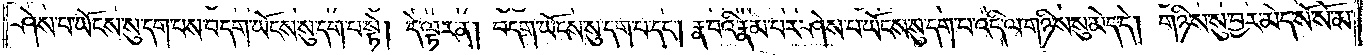ཤེས་པ་ཡོངས་སུ་དག་པས་བདག་ཡོངས་སུ་དག་པ་སྟེ། དེ་ལྟར་ན། བདག་ཡོངས་སུ་དག་པ་དང༌། རྣ་བའི་རྣམ་པར་ཤེས་པ་ཡོངས་སུ་དག་པ་འདི་ལ་གཉིས་སུ་མེད་དེ། གཉིས་སུ་བྱར་མེད་སོ་སོ་མ་
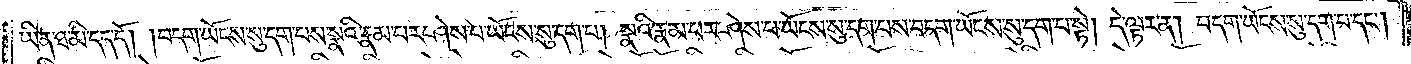ཡིན་ཐ་མི་དད་དོ། །བདག་ཡོངས་སུ་དག་པས་སྣའི་རྣམ་པར་ཤེས་པ་ཡོངས་སུ་དག་པ། སྣའི་རྣམ་པར་ཤེས་པ་ཡོངས་སུ་དག་པས་བདག་ཡོངས་སུ་དག་པ་སྟེ། དེ་ལྟར་ན། བདག་ཡོངས་སུ་དག་པ་དང༌།
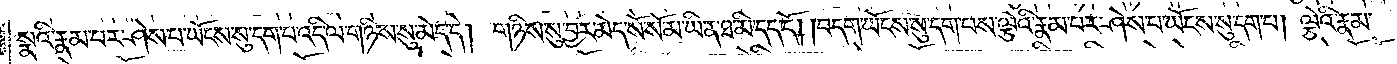སྣའི་རྣམ་པར་ཤེས་པ་ཡོངས་སུ་དག་པ་འདི་ལ་གཉིས་སུ་མེད་དེ། གཉིས་སུ་བྱར་མེད་སོ་སོ་མ་ཡིན་ཐ་མི་དད་དོ། །བདག་ཡོངས་སུ་དག་པས་ལྕེའི་རྣམ་པར་ཤེས་པ་ཡོངས་སུ་དག་པ། ལྕེའི་རྣམ་
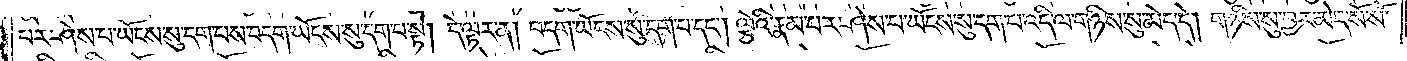པར་ཤེས་པ་ཡོངས་སུ་དག་པས་བདག་ཡོངས་སུ་དག་པ་སྟེ། དེ་ལྟར་ན། བདག་ཡོངས་སུ་དག་པ་དང༌། ལྕེའི་རྣམ་པར་ཤེས་པ་ཡོངས་སུ་དག་པ་འདི་ལ་གཉིས་སུ་མེད་དེ། གཉིས་སུ་བྱར་མེད་སོ་སོ་
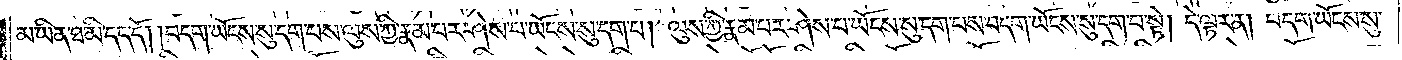མ་ཡིན་ཐ་མི་དད་དོ། །བདག་ཡོངས་སུ་དག་པས་ལུས་ཀྱི་རྣམ་པར་ཤེས་པ་ཡོངས་སུ་དག་པ། ལུས་ཀྱི་རྣམ་པར་ཤེས་པ་ཡོངས་སུ་དག་པས་བདག་ཡོངས་སུ་དག་པ་སྟེ། དེ་ལྟར་ན། བདག་ཡོངས་སུ་
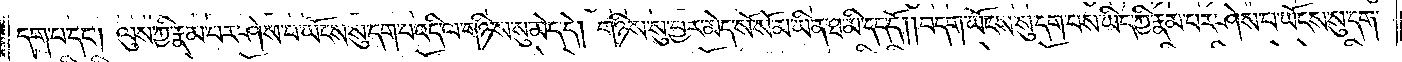དག་པ་དང༌། ལུས་ཀྱི་རྣམ་པར་ཤེས་པ་ཡོངས་སུ་དག་པ་འདི་ལ་གཉིས་སུ་མེད་དེ། གཉིས་སུ་བྱར་མེད་སོ་སོ་མ་ཡིན་ཐ་མི་དད་དོ། །བདག་ཡོངས་སུ་དག་པས་ཡིད་ཀྱི་རྣམ་པར་ཤེས་པ་ཡོངས་སུ་དག་
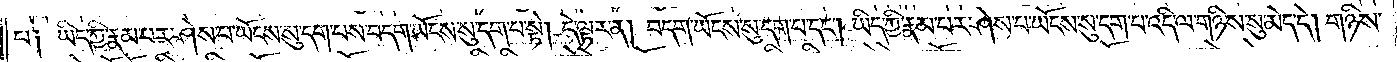པ། ཡིད་ཀྱི་རྣམ་པར་ཤེས་པ་ཡོངས་སུ་དག་པས་བདག་ཡོངས་སུ་དག་པ་སྟེ། དེ་ལྟར་ན། བདག་ཡོངས་སུ་དག་པ་དང༌། ཡིད་ཀྱི་རྣམ་པར་ཤེས་པ་ཡོངས་སུ་དག་པ་འདི་ལ་གཉིས་སུ་མེད་དེ། གཉིས་
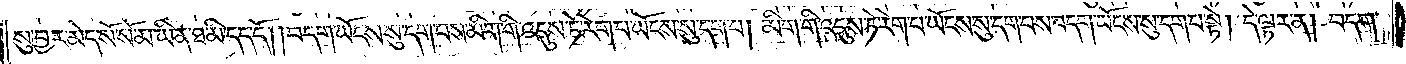སུ་བྱར་མེད་སོ་སོ་མ་ཡིན་ཐ་མི་དད་དོ། །བདག་ཡོངས་སུ་དག་པས་མིག་གི་འདུས་ཏེ་རེག་པ་ཡོངས་སུ་དག་པ། མིག་གི་འདུས་ཏེ་རེག་པ་ཡོངས་སུ་དག་པས་བདག་ཡོངས་སུ་དག་པ་སྟེ། དེ་ལྟར་ན། བདག་
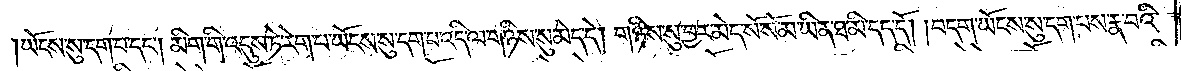ཡོངས་སུ་དག་པ་དང༌། མིག་གི་འདུས་ཏེ་རེག་པ་ཡོངས་སུ་དག་པ་འདི་ལ་གཉིས་སུ་མེད་དེ། གཉིས་སུ་བྱར་མེད་སོ་སོ་མ་ཡིན་ཐ་མི་དད་དོ། །བདག་ཡོངས་སུ་དག་པས་རྣ་བའི་
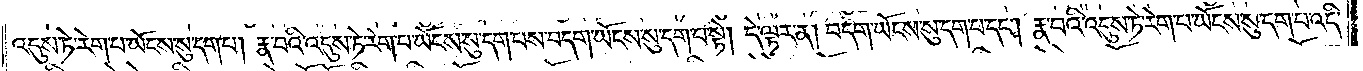འདུས་ཏེ་རེག་པ་ཡོངས་སུ་དག་པ། རྣ་བའི་འདུས་ཏེ་རེག་པ་ཡོངས་སུ་དག་པས་བདག་ཡོངས་སུ་དག་པ་སྟེ། དེ་ལྟར་ན། བདག་ཡོངས་སུ་དག་པ་དང༌། རྣ་བའི་འདུས་ཏེ་རེག་པ་ཡོངས་སུ་དག་པ་འདི་
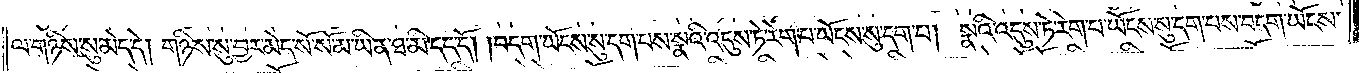ལ་གཉིས་སུ་མེད་དེ། གཉིས་སུ་བྱར་མེད་སོ་སོ་མ་ཡིན་ཐ་མི་དད་དོ། །བདག་ཡོངས་སུ་དག་པས་སྣའི་འདུས་ཏེ་རེག་པ་ཡོངས་སུ་དག་པ། སྣའི་འདུས་ཏེ་རེག་པ་ཡོངས་སུ་དག་པས་བདག་ཡོངས་
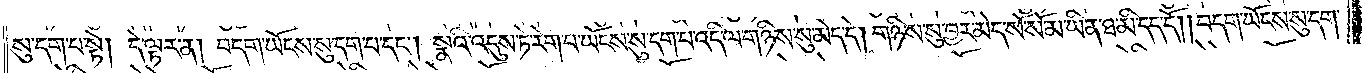སུ་དག་པ་སྟེ། དེ་ལྟར་ན། བདག་ཡོངས་སུ་དག་པ་དང༌། སྣའི་འདུས་ཏེ་རེག་པ་ཡོངས་སུ་དག་པ་འདི་ལ་གཉིས་སུ་མེད་དེ། གཉིས་སུ་བྱར་མེད་སོ་སོ་མ་ཡིན་ཐ་མི་དད་དོ། །བདག་ཡོངས་སུ་དག་
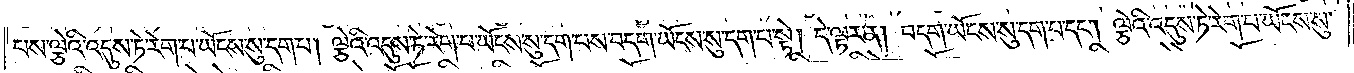པས་ལྕེའི་འདུས་ཏེ་རེག་པ་ཡོངས་སུ་དག་པ། ལྕེའི་འདུས་ཏེ་རེག་པ་ཡོངས་སུ་དག་པས་བདག་ཡོངས་སུ་དག་པ་སྟེ། དེ་ལྟར་ན། བདག་ཡོངས་སུ་དག་པ་དང༌། ལྕེའི་འདུས་ཏེ་རེག་པ་ཡོངས་སུ་
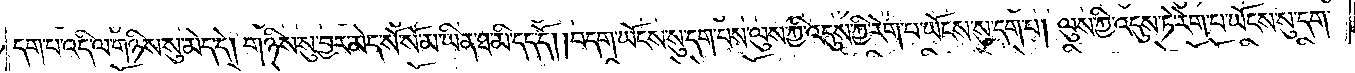དག་པ་འདི་ལ་གཉིས་སུ་མེད་དེ། གཉིས་སུ་བྱར་མེད་སོ་སོ་མ་ཡིན་ཐ་མི་དད་དོ། །བདག་ཡོངས་སུ་དག་པས་ལུས་ཀྱི་འདུས་ཏེ་རེག་པ་ཡོངས་སུ་དག་པ། ལུས་ཀྱི་འདུས་ཏེ་རེག་པ་ཡོངས་སུ་དག་
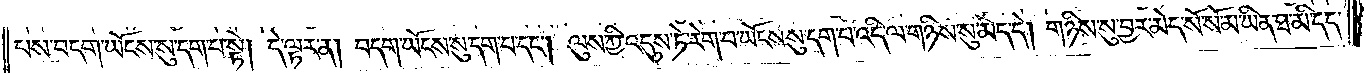པས་བདག་ཡོངས་སུ་དག་པ་སྟེ། དེ་ལྟར་ན། བདག་ཡོངས་སུ་དག་པ་དང༌། ལུས་ཀྱི་འདུས་ཏེ་རེག་པ་ཡོངས་སུ་དག་པ་འདི་ལ་གཉིས་སུ་མེད་དེ། གཉིས་སུ་བྱར་མེད་སོ་སོ་མ་ཡིན་ཐ་མི་དད་
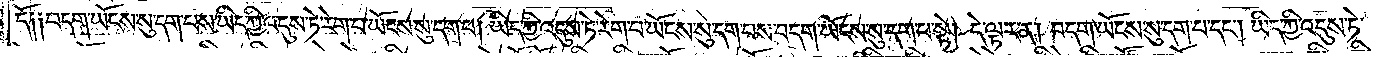དོ༑ ༑བདག་ཡོངས་སུ་དག་པས་ཡིད་ཀྱི་འདུས་ཏེ་རེག་པ་ཡོངས་སུ་དག་པ། ཡིད་ཀྱི་འདུས་ཏེ་རེག་པ་ཡོངས་སུ་དག་པས་བདག་ཡོངས་སུ་དག་པ་སྟེ། དེ་ལྟར་ན། བདག་ཡོངས་སུ་དག་པ་དང༌། ཡིད་ཀྱི་འདུས་ཏེ་
